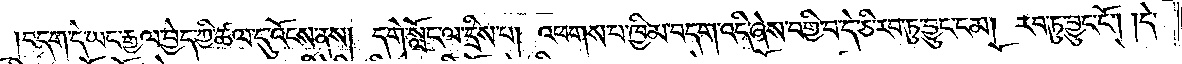བདག་དེ་ཡང་རྒྱལ་བྱེད་ཀྱི་ཚལ་དུ་འོངས་ནས། དགེ་སློང་ལ་དྲིས་པ། འཕགས་པ་ཁྱིམ་བདག་འདི་ཞེས་བགྱི་བ་དེ་ཅི་རབ་ཏུ་བྱུང་ངམ། རབ་ཏུ་བྱུང་ངོ༌། །དེ་
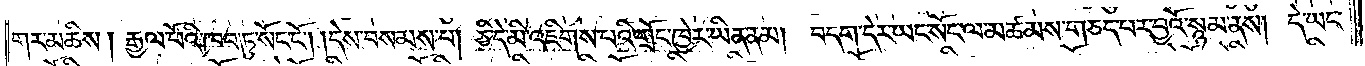གར་མཆིས། རྒྱལ་པོའི་ཁབ་ཏུ་སོང་ངོ༌། །དེས་བསམས་པ། ཅི་དེ་མི་འཇིགས་པའི་གྲོང་ཁྱེར་ཡིན་ནམ། བདག་དེར་ཡང་སོང་ལ་མཚམས་གཅད་པར་བྱའོ་སྙམ་ནས། དེ་ཡང་
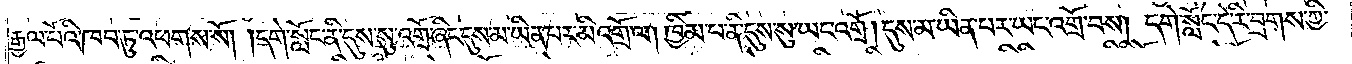རྒྱལ་པོའི་ཁབ་ཏུ་འཕགས་སོ། །དགེ་སློང་ནི་དུས་སུ་འགྲོ་ཞིང་དུས་མ་ཡིན་པར་མི་འགྲོ་ལ། ཁྱིམ་པ་ནི་དུས་སུ་ཡང་འགྲོ། །དུས་མ་ཡིན་པར་ཡང་འགྲོ་བས། དགེ་སློང་དེ་རི་བྲགས་ཀྱི་
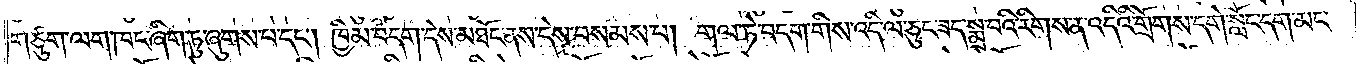གཙུག་ལག་ཁང་ཞིག་ཏུ་ཞུགས་པ་དང༌། ཁྱིམ་བདག་དེས་མཐོང་ནས་དེས་བསམས་པ། གལ་ཏེ་བདག་གིས་འདི་ལ་ཅུང་ཟད་སྨྲ་བའི་རིགས་ན་འདིའི་གྲོགས་དགེ་སློང་དག་མང་
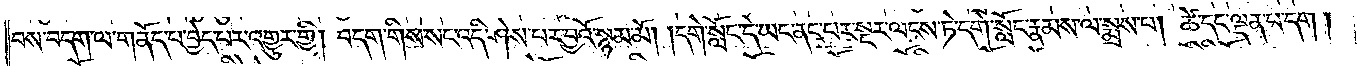བས་བདག་ལ་གནོད་པ་བྱེད་པར་འགྱུར་གྱི། བདག་གིས་སང་འདི་ཤེས་པར་བྱའོ་སྙམ་མོ། །དགེ་སློང་དེ་ཡང་ནང་པར་སྔར་ལངས་ཏེ་དགེ་སློང་རྣམས་ལ་སྨྲས་པ། ཚེ་དང་ལྡན་པ་དག །
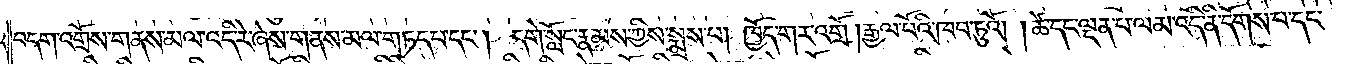བདག་འགྲོས་གནས་མལ་འདི་རེ་ཞེས་གནས་མལ་གཏད་པ་དང༌། དགེ་སློང་རྣམས་ཀྱིས་སྨྲས་པ། ཁྱོད་གར་འགྲོ། རྒྱལ་པོའི་ཁབ་ཏུའོ། །ཚེ་དང་ལྡན་པ་ལམ་འདི་ནི་དོགས་པ་དང་
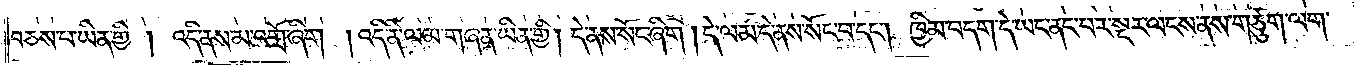བཅས་པ་ཡིན་གྱི། འདི་ནས་མ་འགྲོ་ཞིག། འདི་ནི་ལམ་གཞན་ཡིན་གྱི། དེ་ནས་སོང་ཞིག །དེ་ལམ་དེ་ནས་སོང་བ་དང༌། ཁྱིམ་བདག་དེ་ཡང་ནང་པར་སྔར་ལངས་ནས་གཙུག་ལག་
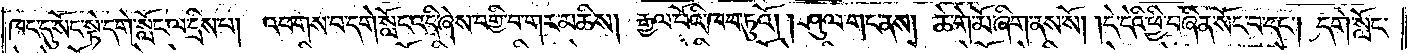ཁང་དུ་སོང་སྟེ་དགེ་སློང་ལ་དྲིས་པ། འཕགས་པ་དགེ་སློང་འདི་ཞེས་བགྱི་བ་གར་མཆིས། རྒྱལ་པོའི་ཁབ་ཏུའོ། །ཤུལ་གང་ནས། ཆེ་གེ་མོ་ཞིག་ནས་སོ། །དེ་དེའི་ཕྱི་བཞིན་སོང་བ་དང༌། དགེ་སློང་
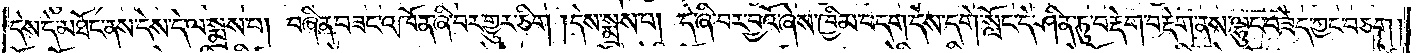དེས་དེ་མཐོང་ནས་དེས་དེ་ལ་སྨྲས་པ། བཞིན་བཟང་འཁོན་ཞི་བར་གྱུར་ཅིག །དེས་སྨྲས་པ། དེ་བཞི་བར་བྱའོ་ཞེས་ཁྱིམ་བདག་དེས་དགེ་སློང་དེ་ཤིན་ཏུ་བརྡེག་བརྡེག་ནས་ལྷུང་བཟེད་ཀྱང་བཅག།
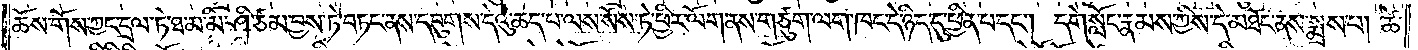ཆོས་གོས་ཀྱང་དྲལ་ཏེ་ཐ་མ་མི་ཤི་ཙམ་བྱས་ཏེ་བཏང་ནས་དབུགས་དེའུ་ཆད་པ་ལས་སོས་ཏེ་ཕྱིར་ལོག་ནས་གཙུག་ལག་ཁང་དེ་ཉིད་དུ་ཕྱིན་པ་དང༌། དགེ་སློང་རྣམས་ཀྱིས་དེ་མཐོང་ནས་སྨྲས་པ། ཚེ་
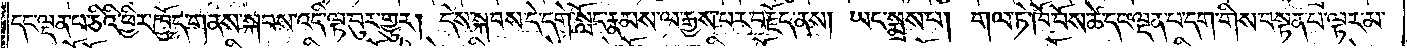དང་ལྡན་པ་ཅིའི་ཕྱིར་ཁྱོད་གནས་སྐབས་འདི་ལྟ་བུར་གྱུར། དེས་སྐབས་དེ་དགེ་སློང་རྣམས་ལ་རྒྱས་པར་བརྗོད་ནས། ཡང་སྨྲས་པ། གལ་ཏེ་ཁོ་བོས་ཚེ་དང་ལྡན་པ་དག་གིས་བསྟན་པ་ལྟར་མ་
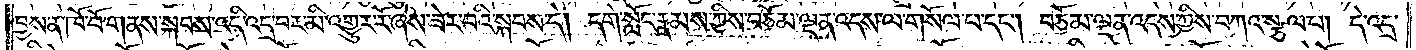བྱས་ནས་ཁོ་བོ་གནས་སྐབས་འདི་འདྲ་བར་མི་འགྱུར་རོ་ཞེས་ཟེར་བའི་སྐབས་དེ། དགེ་སློང་རྣམས་ཀྱིས་བཅོམ་ལྡན་འདས་ལ་གསོལ་བ་དང༌། བཅོམ་ལྡན་འདས་ཀྱིས་བཀའ་སྩལ་པ། དེ་འདྲ་
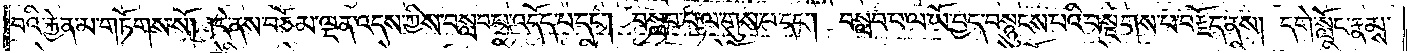བའི་རྐྱེན་མ་གཏོགས་སོ། །དེ་ནས་བཅོམ་ལྡན་འདས་ཀྱིས་བསླབ་པ་འདོད་པ་དང༌། བསླབ་པ་ལ་གུས་པ་དང༌། བསླབ་པ་ལ་ཡོ་བྱད་བསྙུངས་པའི་བསྔགས་པ་བརྗོད་ནས། དགེ་སློང་རྣམས་
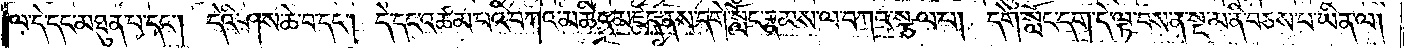ལ་དེ་དང་མཐུན་པ་དང༌། དེའི་ཤས་ཆེ་བ་དང༌། དེ་དང་འཚམ་པའི་བཀའ་མཆིད་མཛད་ནས་དགེ་སློང་རྣམས་ལ་བཀའ་སྩལ་པ། དགེ་སློང་དག་དེ་ལྟ་བས་ན་སྔ་མ་ནི་བཅས་པ་ཡིན་ལ།
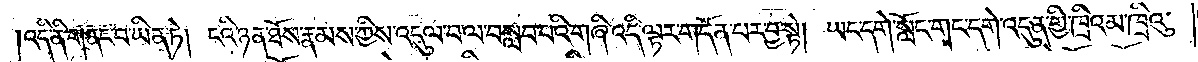འདི་ནི་གནང་བ་ཡིན་ཏེ། ངའི་ཉན་ཐོས་རྣམས་ཀྱིས་འདུལ་བ་ལ་བསླབ་པའི་གཞི་འདི་ལྟར་གདོན་པར་བྱ་སྟེ། ཡང་དགེ་སློང་གང་དགེ་འདུན་གྱི་ཁྲིའམ་ཁྲིའུ་
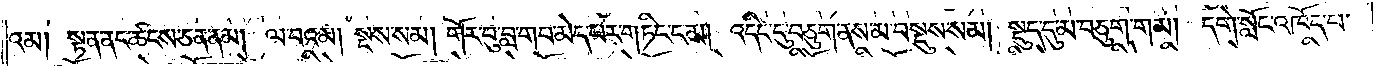འམ། སྟན་ནང་ཚངས་ཅན་ནམ། ལ་བའམ། སྔས་སམ། གོར་བུ་བླ་གབ་མེད་པར་གཏིང་ངམ། འདིང་དུ་བཅུག་ནས་མ་བསྡུས་སམ། སྡུད་དུ་མ་བཅུག་གམ། དགེ་སློང་འཁོད་པ་
